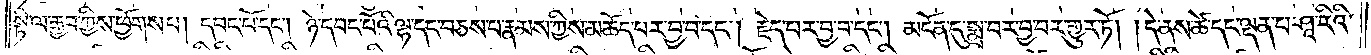སྟི་ལ་རྒྱབ་ཀྱིས་ཕྱོགས་པ། དབང་པོ་དང༌། ཉེ་དབང་པོའི་ལྷ་དང་བཅས་པ་རྣམས་ཀྱིས་མཆོད་པར་བྱ་བ་དང༌། རྗེད་པར་བྱ་བ་དང༌། མངོན་དུ་སྨྲ་བར་བྱ་བར་གྱུར་ཏོ། །དེ་ནས་ཚེ་དང་ལྡན་པ་ཤཱ་རིའི་
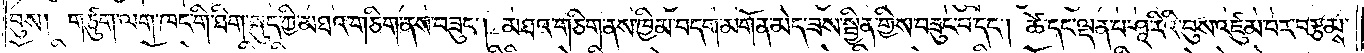བུས། གཙུག་ལག་ཁང་གི་ཐིག་སྐུད་ཀྱི་མཐའ་གཅིག་ནས་བཟུང༌། མཐའ་གཅིག་ནས་ཁྱིམ་བདག་མགོན་མེད་ཟས་སྦྱིན་གྱིས་བཟུང་བ་དང༌། ཚེ་དང་ལྡན་པ་ཤཱ་རིའི་བུས་འཛུམ་པར་བརྩམས་
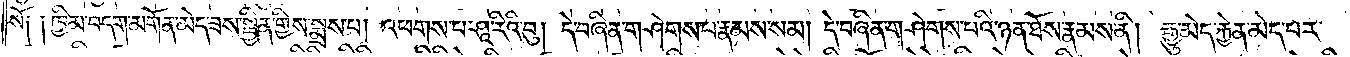སོ། །ཁྱིམ་བདག་མགོན་མེད་ཟས་སྦྱིན་གྱིས་སྨྲས་པ། འཕགས་པ་ཤཱ་རིའི་བུ། དེ་བཞིན་གཤེགས་པ་རྣམས་སམ། དེ་བཞིན་གཤེགས་པའི་ཉན་ཐོས་རྣམས་ནི། རྒྱུ་མེད་རྐྱེན་མེད་པར་
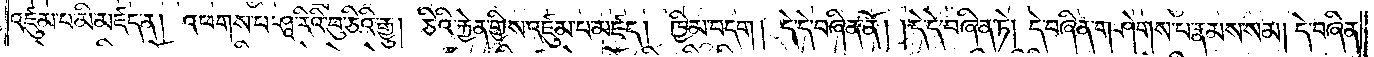འཛུམ་པ་མི་མཛད་ན། འཕགས་པ་ཤཱ་རིའི་བུ་ཅིའི་རྒྱུ། ཅིའི་རྐྱེན་གྱིས་འཛུམ་པ་མཛད། ཁྱིམ་བདག །དེ་དེ་བཞིན་ནོ། །དེ་དེ་བཞིན་ཏེ། དེ་བཞིན་གཤེགས་པ་རྣམས་སམ། དེ་བཞིན་
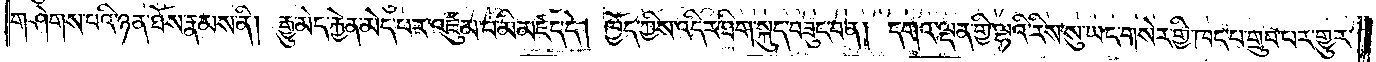གཤེགས་པའི་ཉན་ཐོས་རྣམས་ནི། རྒྱུ་མེད་རྐྱེན་མེད་པར་འཛུམ་པ་མི་མཛད་དེ། ཁྱོད་ཀྱིས་འདིར་ཐིག་སྐུད་བཟུང་བ་ན། དགའ་ལྡན་གྱི་ལྷའི་རིས་སུ་ཡང་གསེར་གྱི་ཁང་པ་གྲུབ་པར་གྱུར་
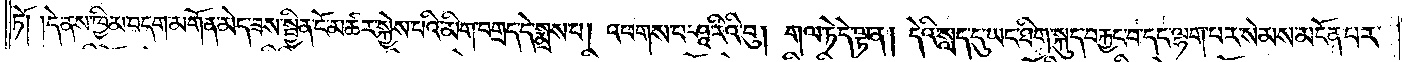ཏོ། །དེ་ནས་ཁྱིམ་བདག་མགོན་མེད་ཟས་སྦྱིན་ངོ་མཚར་སྐྱེས་པའི་མིག་བགྲད་དེ་སྨྲས་པ། འཕགས་པ་ཤཱ་རིའི་བུ། གལ་ཏེ་དེ་ལྟ་ན། དེའི་སླད་དུ་ཡང་ཐིག་སྐུད་བརྐྱང་པ་དང་ལྷག་པར་སེམས་མངོན་པར་
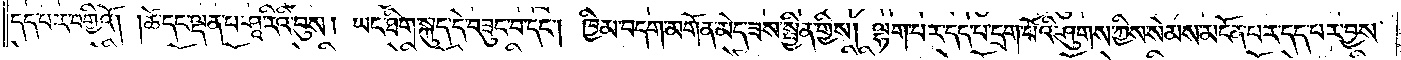དད་པར་བགྱིའོ། ཚེ་དང་ལྡན་པ་ཤཱ་རིའི་བུས། ཡང་ཐིག་སྐུད་དེ་བཟུང་བ་དང༌། ཁྱིམ་བདག་མགོན་མེད་ཟས་སྦྱིན་གྱིས། ལྷག་པར་དད་པ་དྲག་པོའི་ཤུགས་ཀྱིས་སེམས་མངོན་པར་དད་པར་བྱས་
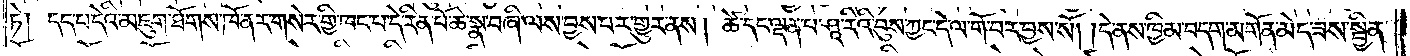ཏེ། དད་པ་དེའི་མཇུག་ཐོགས་ཁོ་ནར་གསེར་གྱི་ཁང་པ་དེ་རིན་པོ་ཆེ་སྣ་བཞི་ལས་བྱས་པར་གྱུར་ནས། ཚེ་དང་ལྡན་པ་ཤཱ་རིའི་བུས་ཀྱང་དེ་ལ་གོ་བར་བྱས་སོ། །དེ་ནས་ཁྱིམ་བདག་མགོན་མེད་ཟས་སྦྱིན་
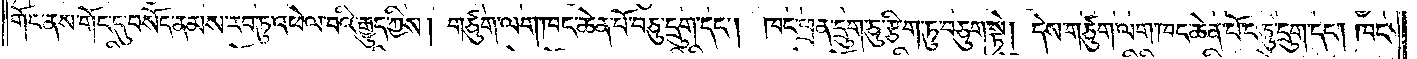གོང་ནས་གོང་དུ་བསོད་ནམས་རབ་ཏུ་འཕེལ་བའི་རྒྱུད་ཀྱིས། གཙུག་ལག་ཁང་ཆེན་པོ་བཅུ་དྲུག་དང༌། ཁང་ཕྲན་དྲུག་ཅུ་རྩིག་ཏུ་བཅུག་སྟེ། དེས་གཙུག་ལག་ཁང་ཆེན་པོ་བཅུ་དྲུག་དང༌། ཁང་
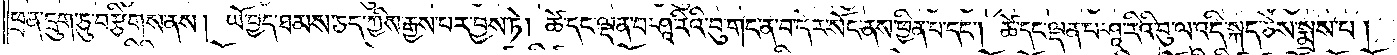ཕྲན་དྲུག་ཅུ་བརྩིགས་ནས། ཡོ་བྱད་ཐམས་ཅད་ཀྱིས་རྒྱས་པར་བྱས་ཏེ། ཚེ་དང་ལྡན་པ་ཤཱ་རིའི་བུ་གང་ན་བ་དེར་སོང་ནས་ཕྱིན་པ་དང༌། ཚེ་དང་ལྡན་པ་ཤཱ་རིའི་བུ་ལ་འདི་སྐད་ཅེས་སྨྲས་པ།
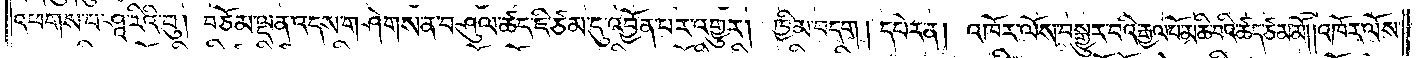འཕགས་པ་ཤཱ་རིའི་བུ། བཅོམ་ལྡན་འདས་གཤེགས་ན་བཤུལ་ཚད་ཇི་ཙམ་དུ་འབྱོན་པར་འགྱུར། །ཁྱིམ་བདག། དཔེར་ན། འཁོར་ལོས་བསྒྱུར་བའི་རྒྱལ་པོ་མཆི་བའི་ཚད་ཙམ་མོ། །འཁོར་ལོས་
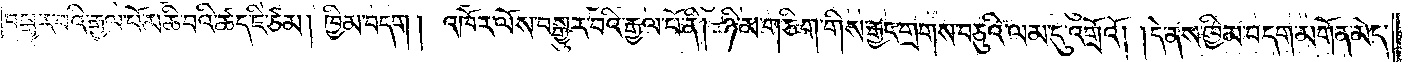བསྒྱུར་བའི་རྒྱལ་པོ་མཆི་བའི་ཚད་ཇི་ཙམ། ཁྱིམ་བདག །འཁོར་ལོས་བསྒྱུར་བའི་རྒྱལ་པོ་ནི། ཉི་མ་གཅིག་གིས་རྒྱང་གྲངས་བཅུའི་ལམ་དུ་འགྲོའོ། །དེ་ནས་ཁྱིམ་བདག་མགོན་མེད་
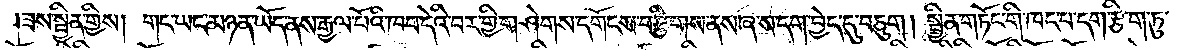།ཟས་སྦྱིན་གྱིས། གང་ཡང་མཉན་ཡོད་ནས་རྒྱལ་པོའི་ཁབ་དེའི་བར་གྱི་གཤེགས་དགོངས་བརྩིགས་ནས་ཞ་ས་དག་བྱེད་དུ་བཅུག །སྦྱིན་གཏོང་གི་ཁང་པ་དག་རྩིག་ཏུ་
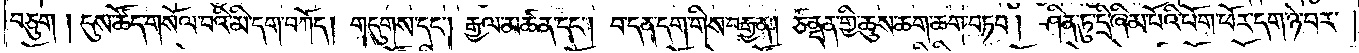བཅུག །དུས་ཚོད་གསོལ་བའི་མི་དག་བཀོད། གདུགས་དང༌། རྒྱལ་མཚན་དང༌། བ་དན་དག་གིས་བརྒྱན། ཙནྡན་གྱི་ཆུས་ཆག་ཆག་བཏབ་།ཤིན་ཏུ་དྲི་ཞིམ་པོའི་པོག་ཕོར་དག་ཉེ་བར་
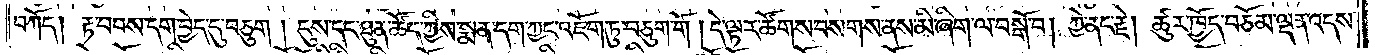བཀོད། རྟ་བབས་དག་བྱེད་དུ་བཅུག །དུས་དང་ཐུན་ཚོད་ཀྱིས་སྨན་དག་ཀྱང་འཇོག་ཏུ་བཅུག་གོ །དེ་ལྟར་ཚོགས་བསགས་ནས་མི་ཞིག་ལ་བསྒོ་བ། ཀྱེ་ནང་རྗེ། ཚུར་ཁྱོད་བཅོམ་ལྡན་འདས་
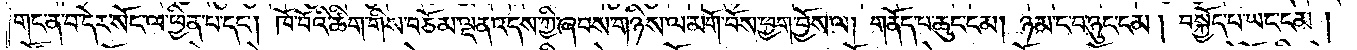གང་ན་བ་དེར་སོང་ལ་ཕྱིན་པ་དང༌། ཁོ་བོའི་ཚིག་གིས་བཅོམ་ལྡན་འདས་ཀྱི་ཞབས་གཉིས་ལ་མགོ་བོས་ཕྱག་བྱོས་ལ། གནོད་པ་ཆུང་ངམ། ཉམ་ང་བ་ཉུང་ངམ། །བསྐྱོད་པ་ཡང་ངམ།
